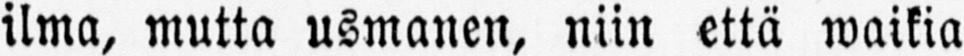ilma, mutta usmanen, niin että waikia
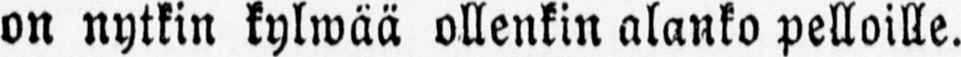on nytkin kylwää ollenkin alanko pelloille.
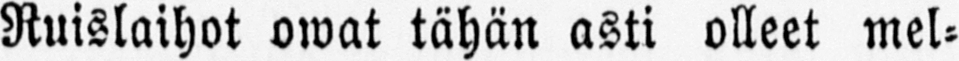Ruislaihot owat tähän asti olleet mel-
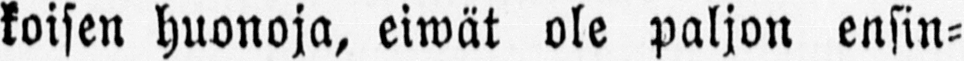koisen huonoja, eiwät ole paljon ensin-
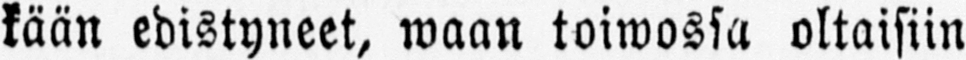kään edistyneet, waan toiwossa oltaisiin
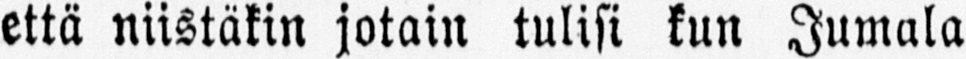että niistäkin jotain tulisi kun Jumala
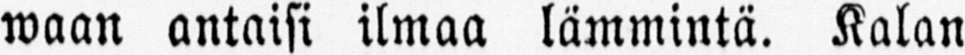waan antaisi ilmaa lämmintä. Kalan
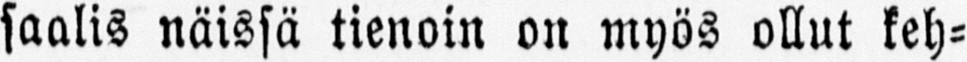saalis näissä tienoin on myös ollut keh-
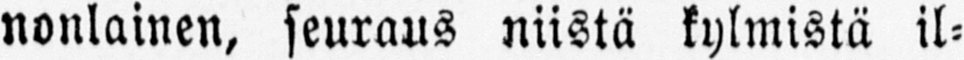nonlainen, seuraus niistä kylmistä il-
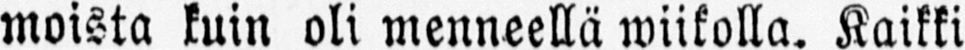moista kuin oli menneellä wiikolla. Kaikki
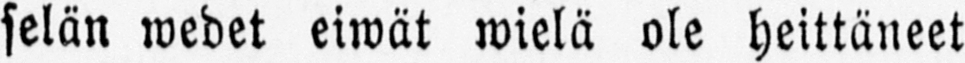selän wedet eiwät wielä ole heittäneet
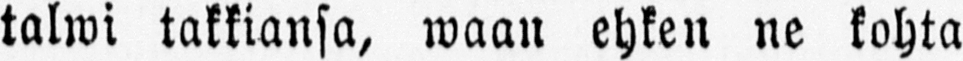talwi takkiansa, waan ehken ne kohta
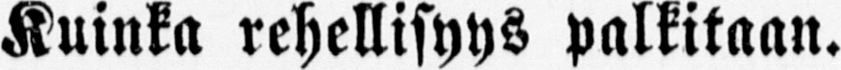Kuinka rehellisyys palkitaan.
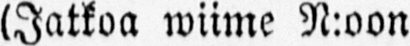(Jatkoa wiime N:oon.)
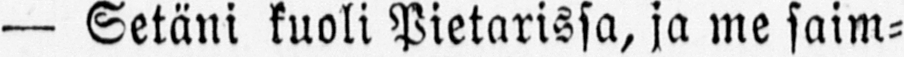— Setäni kuoli Pietarissa, ja me saim-
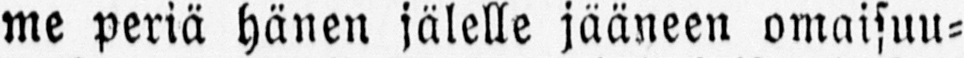me periä hänen jälelle jääneen omaisuu-
